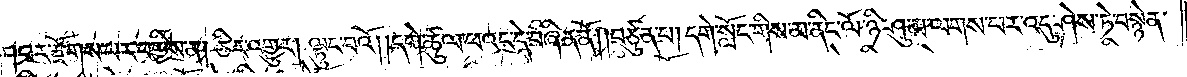།པར་རྫོགས་པར་བགྱིས་ན། ཅིར་འགྱུར། ལྟུང་བའོ། །དགེ་ཚུལ་ཕའང་དེ་བཞིན་ནོ། །བཙུན་པ། དགེ་སློང་གིས་མ་ནིང་ལོ་ཉི་ཤུ་མ་ལགས་པར་འདུ་ཤེས་ཏེ་བསྙེན་
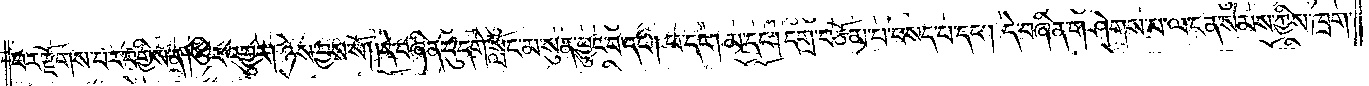པར་རྫོགས་པར་བགྱིས་ན། ཅིར་འགྱུར། ཉེས་བྱས་སོ། །དེ་བཞིན་དུ་དགེ་སློང་མ་སུན་ཕྱུང་བ་དང༌། ཕ་དང༌། མ་དང༌། དགྲ་བཅོམ་པ་བསད་པ་དང༌། དེ་བཞིན་གཤེགས་པ་ལ་ངན་སེམས་ཀྱིས་ཁྲག་
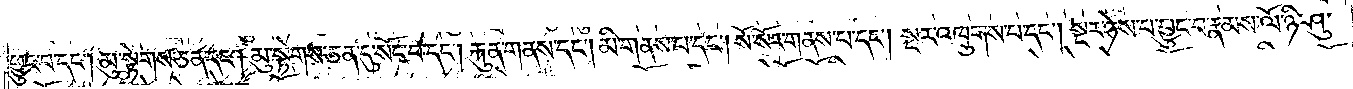ཕྱུང་བ་དང༌། མུ་སྟེགས་ཅན་དང༌། མུ་སྟེགས་ཅན་དུ་སོང་བ་དང༌། རྐུན་གནས་དང༌། མི་གནས་པ་དང༌། སོ་སོར་གནས་པ་དང༌། སྔར་འཁྲུགས་པ་དང༌། སྔར་ཉེས་པ་བྱུང་བ་རྣམས་ལོ་ཉི་ཤུ་
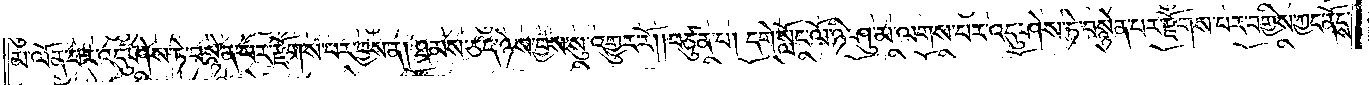མ་ལོན་པར་འདུ་ཤེས་ཏེ་བསྙེན་པར་རྫོགས་པར་བྱས་ན། ཐམས་ཅད་ཉེས་བྱས་སུ་འགྱུར་རོ། །བཙུན་པ། དགེ་སློང་ལོ་ཉི་ཤུ་མ་ལགས་པར་དུ་ཤེས་ཏེ་བསྙེན་པར་རྫོགས་པར་བགྱིས་ཀྱང་ནོངས་
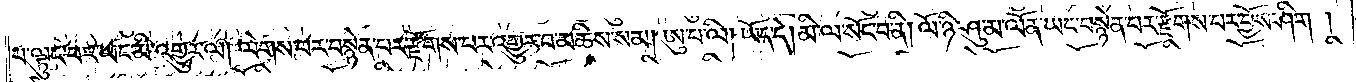པ་ལྟུང་བར་ཡང་མི་འགྱུར་ལ། ལེགས་པར་བསྙེན་པར་རྫོགས་པར་འགྱུར་བ་མཆིས་སམ། ཨུ་པ་ལི། ཡོད་དེ། མི་ལ་སོང་བ་ནི། ལོ་ཉི་ཤུ་མ་ལོན་ཡང་བསྙེན་པར་རྫོགས་པར་བྱོས་ཤིག །
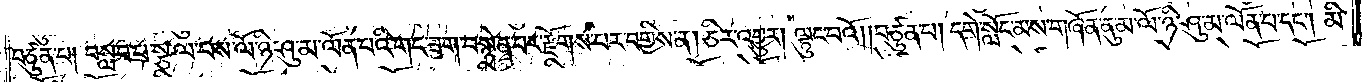བཙུན་པ། བསླབ་པ་སྩལ་བས་ལོ་ཤི་ཤུ་མ་ལོན་པའི་གང་ཟག་བསྙེན་པར་རྫོགས་པར་བགྱིས་ན། ཅིར་འགྱུར། ལྟུང་བའོ། །བཙུན་པ། དགེ་སློང་མས་གཞོན་ནུ་མ་ལོ་ཉི་ཤུ་མ་ལོན་པ་དང༌། མི་
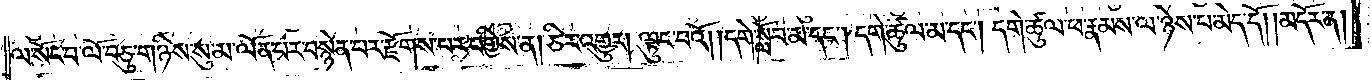ལ་སོང་བ་ལོ་བཅུ་གཉིས་སུ་མ་ལོན་པར་བསྙེན་པར་རྫོགས་པར་བགྱིས་ན། ཅིར་འགྱུར། ལྟུང་བའོ། །དགེ་སློབ་མ་དང༌། དགེ་ཚུལ་མ་དང༌། དགེ་ཚུལ་རྣམས་ལ་ཉེས་པ་མེད་དོ།    །མདོར་ན།
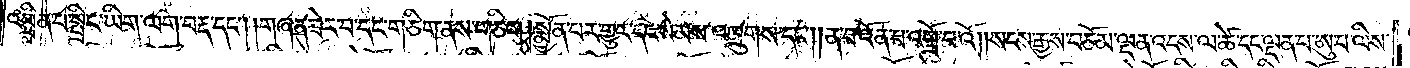འཕྲིན་པ་སྤྲིང་ཡིག་ལག་བརྡ་དང༌། གཞན་ཟེར་བ་དང་གཅིག་ནས་གཅིག །སྨྱོན་པར་གྱུར་དང་སེམས་འཁྲུགས་དང༌། །ན་བ་འོན་པ་འགྲོ་བ་འོ། །སངས་རྒྱས་བཅོམ་ལྡན་འདས་ལ་ཚེ་དང་ལྡན་པ་ཨུ་པ་ལིས་
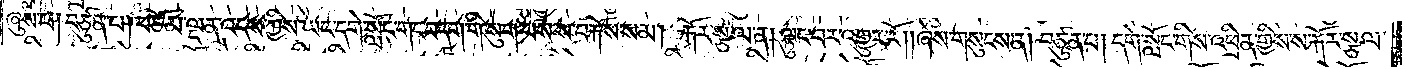ཞུས་པ། བཙུན་པ། བཅོམ་ལྡན་འདས་ཀྱིས་ཡང་དགེ་སློང་གང་བདག་གིས་སུག་པས་ས་བརྐོས་སམ། རྐོར་སྩལ་ན། ལྟུང་བར་འགྱུར་རོ། །ཞེས་གསུངས་ན། བཙུན་པ། དགེ་སློང་གིས་འཕྲིན་གྱིས་ས་རྐོར་སྩལ་
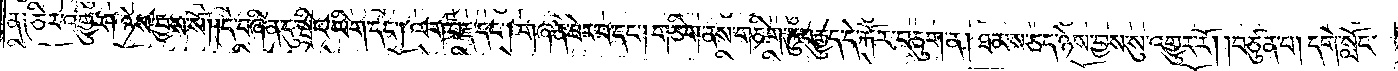ན༑ ཅིར་འགྱུར། ཉེས་བྱས་སོ། །དེ་བཞིན་དུ་སྤྲིང་ཡིག་དང༌། ལག་བརྡ་དང༌། གཞན་ཟེར་བ་དང༌། གཅིག་ནས་གཅིག་ཏུ་བརྒྱུད་དེ་རྐོར་བཅུག་ན། ཐམས་ཅད་ཉེས་བྱས་སུ་འགྱུར་རོ། །བཙུན་པ། དགེ་སློང་
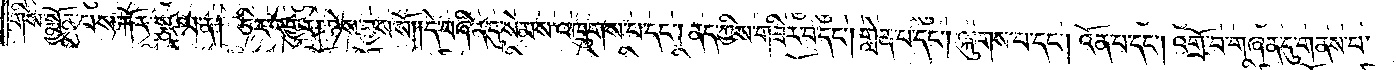གིས་སྨྱོན་པས་རྐོར་སྩལ་ན། ཅིར་འགྱུར། ཉེས་བྱས་སོ། །དེ་བཞིན་དུ་སེམས་འཁྲུགས་པ་དང༌། ནད་ཀྱིས་གཟིར་བ་དང༌། གླེན་པ་དང༌། ལྐུགས་པ་དང༌། འོན་པ་དང༌། འགྲོ་བ་གཞན་དུ་གནས་པ་
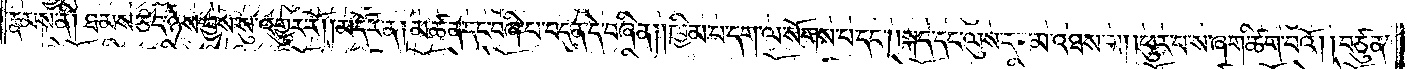རྣམས་ནི། ཐམས་ཅད་ཉེས་བྱས་སུ་འགྱུར་རོ། མདོར་ན། མཚན་དང་བཞི་པ་བདུན་དེ་བཞིན། །ཁྱིམ་པ་དག་ལ་སོགས་པ་དང༌། སྐད་དང་ལུས་དང་མ་འཐས་པ། །ཕུར་པ་ས་ཞག་ཚིག་པའོ། །བཙུན་
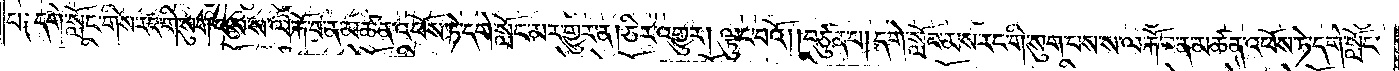པ༑ དགེ་སློང་གིས་རང་གི་སུག་པས་ས་ལ་རྐོ་བ་ན་མཚན་འཕོས་ཏེ་དགེ་སློང་མར་གྱུར་ན། ཅིར་འགྱུར། ལྟུང་བའོ། །བཙུན་པ། དགེ་སློང་མས་རང་གི་སུག་པས་ས་ལ་རྐོ་བ་ན་མཚན་འཕོས་ཏེ་དགེ་སློང་
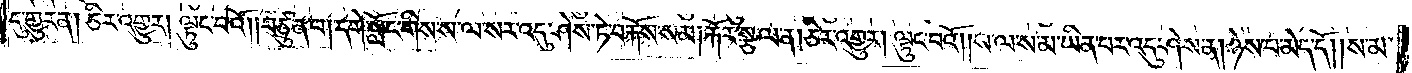དུ་གྱུར་ན། ཅིར་འགྱུར། ལྟུང་བའོ། །བཙུན་པ། དགེ་སློང་གིས་ས་ལ་སར་འདུ་ཤེས་ཏེ་བརྐོས་སམ། རྐོར་སྩལ་ན། ཅིར་འགྱུར། ལྟུང་བའོ། །ས་ལ་ས་མ་ཡིན་པར་འདུ་ཤེས་ན། ཉེས་པ་མེད་དོ། །ས་མ་
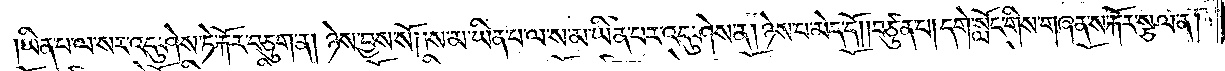།ཡིན་པ་ལ་སར་འདུ་ཤེས་ཏེ་རྐོར་བཅུག་ན། ཉེས་བྱས་སོ། །ས་མ་ཡིན་པ་ལ་ས་མ་ཡིན་པར་འདུ་ཤེས་ན། ཉེས་པ་མེད་དོ། །བཙུན་པ། དགེ་སློང་གིས་གཞན་ས་རྐོར་སྩལ་ན།
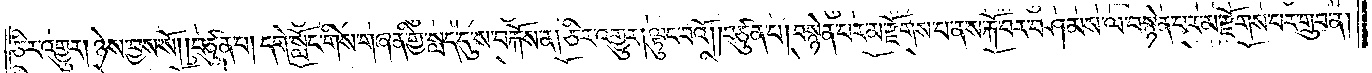ཅིར་འགྱུར། ཉེས་བྱས་སོ། །བཙུན་པ། དགེ་སློང་གིས་གཞན་གྱི་སླད་དུ་ས་བརྐོས་ན། ཅིར་འགྱུར། ལྟུང་བའོ། །བཙུན་པ། བསྙེན་པར་མ་རྫོགས་པ་ན་ས་རྐོ་བར་བཤམས་ལ་བསྙེན་པར་མ་རྫོགས་པར་གྲུབ་ན།
